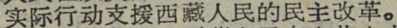实际行动支援西藏人民的民主改革。
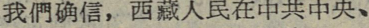我們确信，西藏人民在中共中央、
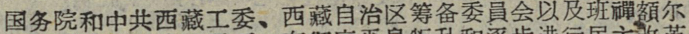国务院和中共西藏工委、西藏自治区等各委員会以及班禪額尔
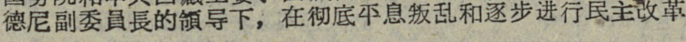德尼副委員長的領导下，在彻底平息叛乱和逐步进行民主改革
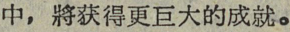中，將获得更巨大的成就。
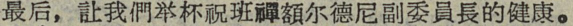最后，让我們举杯祝班禪額尔德尼副委員長的健康。
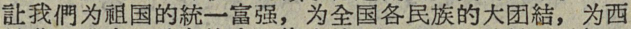让我們为祖国的統一富强，为全国各民族的大团結，为西
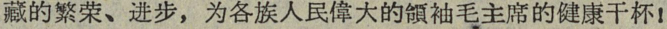藏的繁荣、进步，为各族人民偉大的領袖毛主席的健康干杯！
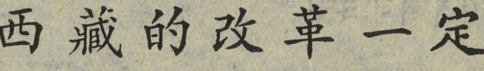西 藏 的 改 革 一 定
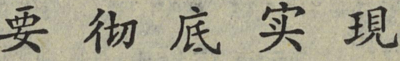要 彻 底 实 現
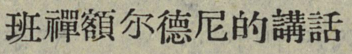班禪額尔德尼的講話
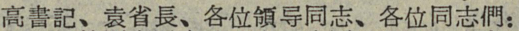高書記、袁省長、各位領导同志、各位同志們：
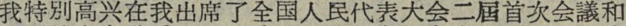我特別高兴在我出席了全国人民代表大会二屆首次会議和
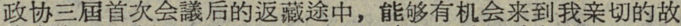政协三屆首次会議后的返藏途中，能够有机会来到我亲切的故
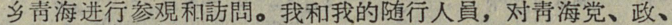乡靑海进行参覌和訪間。我和我的随行人員，对靑海党、政、
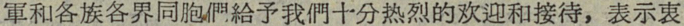軍和各族各界同胞們給予我們十分热烈的欢迎和接待，表示衷
